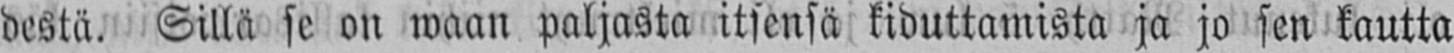destä. Sillä se on waan paljasta itsensä kiduttamista ja jo sen kautta
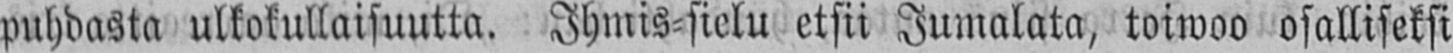puhdasta ulkokullaisuutta. Ihmis-sielu etsii Jumalata, toiwoo osalliseksi
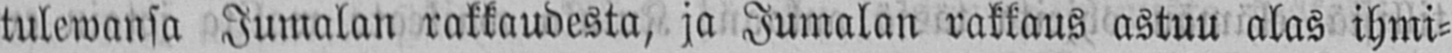tulewansa Jumalan rakkaudesta, ja Jumalan rakkaus astuu alas ihmi-
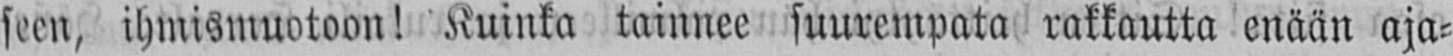seen, ihmismuotoon! Kuinka tainnee suurempata rakkautta enään aja-
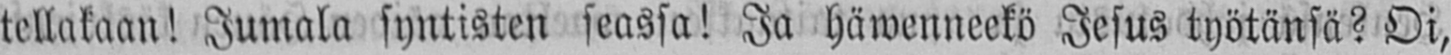tellakaan! Jumala syntisten seassa! Ja häwenneekö Jesus työtänsä? Oi,
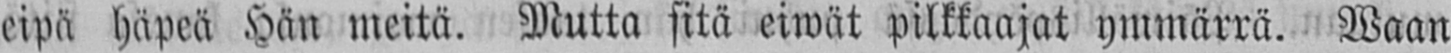eipä häpeä Hän meitä. Mutta sitä eiwät pilkkaajat ymmärrä. Waan
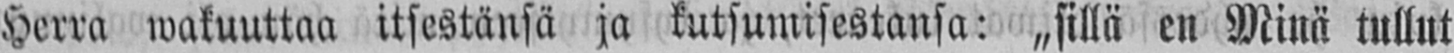Herra wakuuttaa itestänsä ja kutsumisestansa: „sillä en Minä tullut
